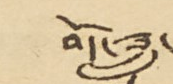བོད་ཟླ་
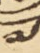༧
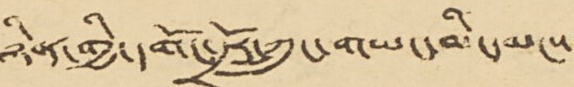ཉིན་གྱི་དགོང་དྲོར་ཀྲུང་གཡང་མི་དམངས་
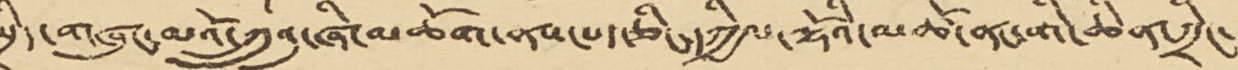སྲིད་གཞུང་མའོ་ཀྲུའུ་ཞི་མཆོག་ནས་པད་ཅིང་དཀྱིལ་ལྷོའི་མཚོ་ནང་གི་ཆིན་ཀྲིང་
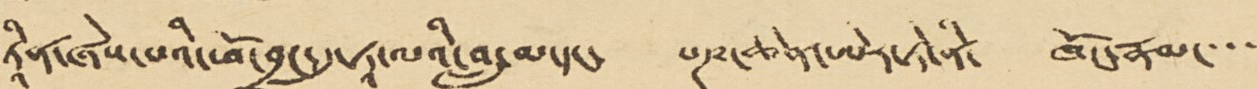ཏཱིན་ཞེས་པའི་ཕོ་བྲང་དུ་ཏཱ་ལའི་བླ་མ་དང་ པཎ་ཆེན་ཨེར་ཏེ་ནི་ ཁོང་རྣམ་་་་་
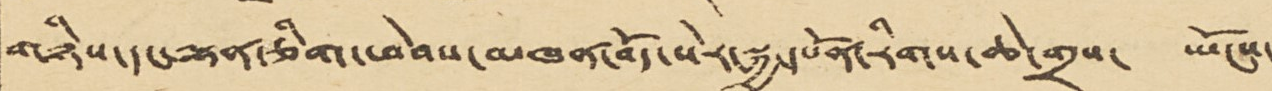གཉིས་དང་ལྷན་ཅིག་ཕེབས་མཁན་བོད་སེར་སྐྱ་དཔོན་རིགས་ཆེ་གྲས་ ཡོངས་
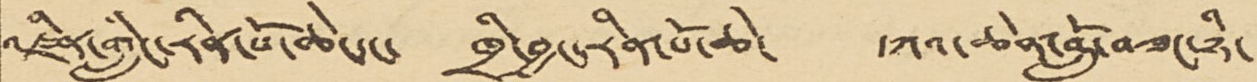འཛིན་གླིང་རིན་པོ་ཆེ་དང་ ཁྲི་བྱང་རིན་པོ་ཆེ་ དཀའ་ཆེན་བློ་བཟང་ཉི་
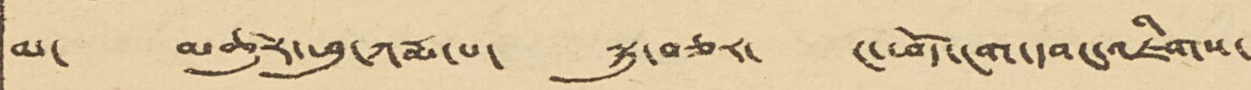མ་ མཚུར་ཕུ་ཀརྨ་པ་ སྐུ་བཅར་ ང་ཕོད་ངག་དབང་འཇིགས་
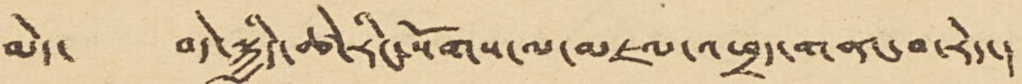མེད་ བདེ་སྐྱིད་ཚེ་རིང་སོགས་ལ་མཇལ་འཕྲད་གནང་བ་རེད་།
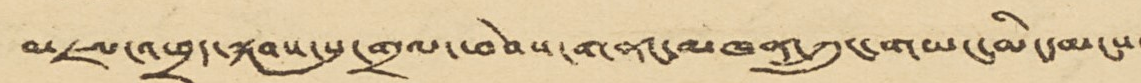མཇལ་འཕྲད་སྐབས་སུ་གྲལ་ཕེབས་གནང་མཁན་ཀྲུང་གཡང་མི་དམངས་
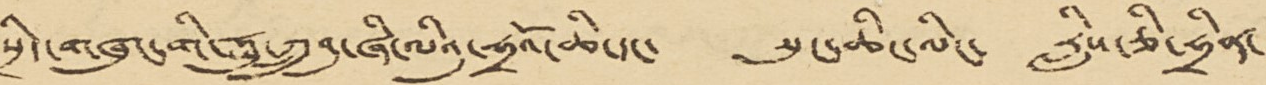སྲིད་གཞུང་གི་ཧྥུ་ཀྲུའུ་ཞི་ལིའུ་ཧྲའོ་ཆི་དང་ སུང་ཆིང་ལིང་ རླིས་ཅི་ཧྲིན་ །
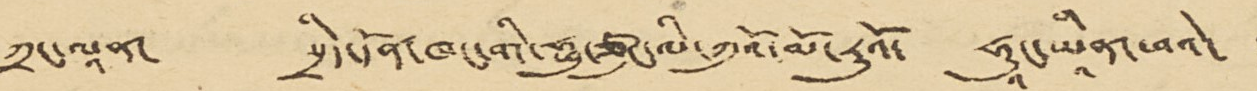ཀྲང་ལཱན་ སྲིད་དོན་ཁང་གི་ཧྥུ་ཙུང་ལི་ཀུའོ་མོ་རུའོ་ ཧཱུང་ཡཱིན་ཕའེ་ །
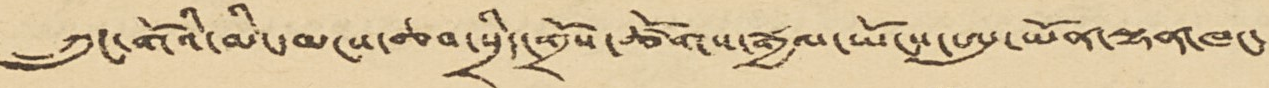ཀྲུང་གོའི་མི་དམངས་ཆབ་སྲིད་གྲོས་ཚོགས་རྒྱལ་ཡོངས་ཨུ་ཡོན་ལྷན་ཁང་
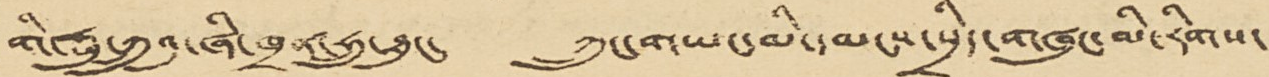གི་ཧྥུ་ཀྲུའུ་ཞིང་ཁྲན་ཧྲུ་ཐུང་ ཀྲུང་གཡང་མི་དམངས་སྲིད་གཞུང་མི་རིགས་
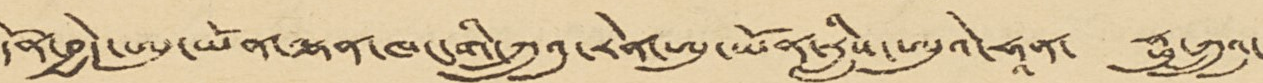དོན་བྱེད་ཨུ་ཡོན་ལྷན་ཁང་གི་ཀྲུའུ་རེན་ཨུ་ཡོན་རླིས་ཨུའེ་ཧཱན་ ཧྥུ་ཀྲུའུ་
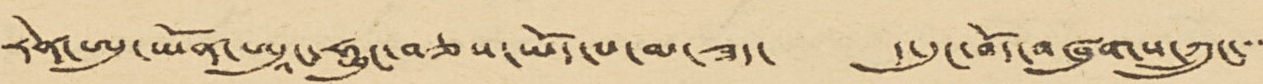རེན་ཨུ་ཡོན་ཨཱུང་ཧྥུང་བཅས་ཡོད་པ་མ་ཟད་ ད་དུང་བོད་བཞུགས་ཀྲུང་་་་
